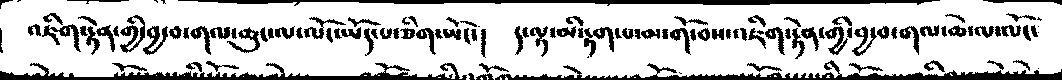འཇིག་རྟེན་གྱི་བྱ་བ་གལ་ཆུང་ལ་ལོང་ཡོད་པ་ཅིག་ཡོང་།  ད་ལྟ་མི་རྟག་པ་མ་གོ་བས་འཇིག་རྟེན་གྱི་བྱ་བ་གལ་ཆེ་ལ་ལོང་
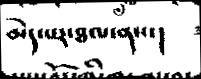མེད་པར་ཐལ་ནས་།
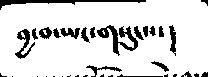བྱ་བ་ཡང་གསུངས་།
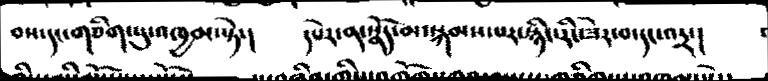བས་དང་གཅིག་པུ་འཁྱམ་སྟེ་།  དཔེར་ན་སྣོད་མ་སྐམས་པར་སྙིང་རིང་ཟེར་བ་དང་འདྲ་།
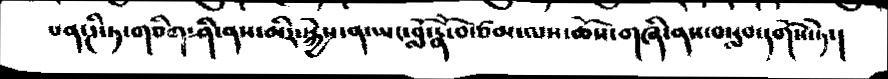པན་ཌི་ཏ་གཅིག་ཤི་ནས་མིར་སྐྱེས་ན་ཡང་བློ་རྣོ་བ་ཙམ་ལས་ཆོས་གཞི་ནས་བསླབ་དགོས་ཏེ་།
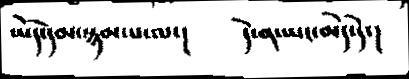ཡོད་དམ་སྙམ་པ་ལ་།  དེ་ན་ཡང་མེད་དེ་།
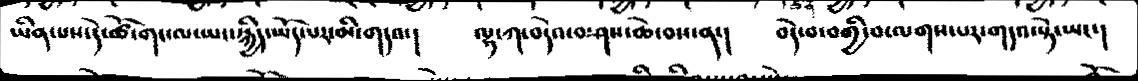ཡིན་པས་དེ་ཚོ་གང་ལ་ཡང་སྐྱིད་ཡོད་པར་མི་གདའ་།  ལྷ་ཀ་བདེའ་བ་ཤས་ཆེ་བས་ན་།  བདེ་བ་བགྱི་བ་ལགས་པར་གདའ་སྟེ་ཡང་།
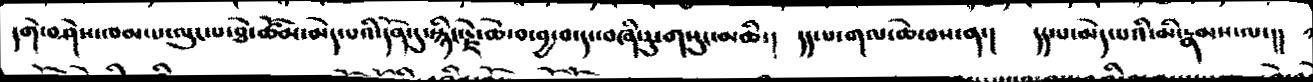དགེ་བཤེས་ཁམ་པ་ལུང་པ་ཐེ་ཚོམ་མེད་པའི་དོན་དུ་སྙིང་རྗེ་ཆེ་བ་བྱ་བ་དང་བཞི་རུ་གསུང་མཆི་།    དད་པ་གལ་ཆེ་བས་ན་།   དད་པ་མེད་པའི་མི་རྣམས་ལ་།།
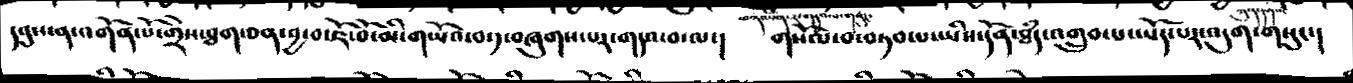དབུས་ན་འགོན་པོ་གྲེས་ཐག་ཅན་བྱ་བ་ཇོ་བོ་མི་གཡོའ་བ་༡་བཞུགས་པར་གདའ་བ་ལ་།  གསོལ་བ་བཏབ་པ་ཡིས་དོན་ཐཾད་འགྲུབ་པ་ཡོད་པར་འདུག་གསུང་།
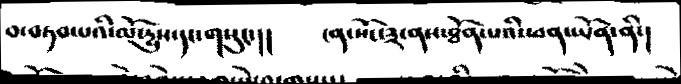བ་བཏབ་པའི་ལོ་དྱུས་དང་གསུང་།།    ངན་སོང་༣་ནས་ཐོན་པའི་ཕན་ཡོན་ནི་།
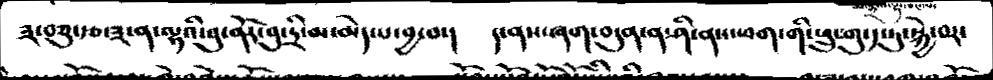༣་བཅུ་རྩ་༣་ན་ལྷའི་བུ་ནོར་བུ་དྲི་མ་མེད་པ་བྱ་བ་།   ད་ནས་ཞག་བདུན་ན་ཤི་ནས་ཕག་གི་ཕྲུ་གུ་༡་ཏུ་སྐྱེ་བར་
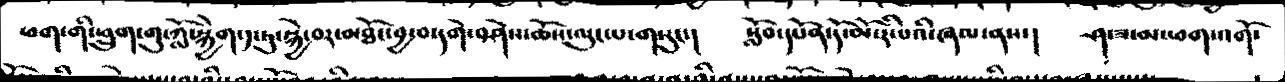ཕག་གི་ཕྲུ་གུ་ཀློ་སྐྱེག་༡་ཏུ་སྐྱེ་བར་མཐོང་བྱ་བ་དགེ་བཤེས་ཆོས་ལུང་པ་གསུང་།   སློབ་དཔོན་དོ་མོ་རི་པའི་ཞལ་ནས་།   ཤ་ཟ་མ་ཕག་འགོ་
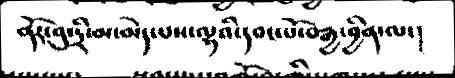ནོར་བུ་དྲི་མ་མེད་པས་ལྷའི་དབང་པོ་བརྒྱ་བྱིན་ལ་།
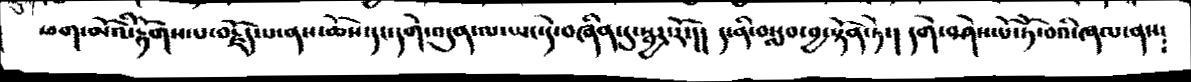ཕག་མོའི་རྟོགས་པ་བརྗོད་པ་ནས་ཆོས་དང་དགེ་འདུན་ལ་ཡང་དེ་བཞིན་དུ་སྦྱར་རོ་།།  ད་ནི་བསླབ་བྱ་སྟོན་ཏེ་།  དགེ་བཤེས་པོ་ཏོ་བའི་ཞལ་ནས༴
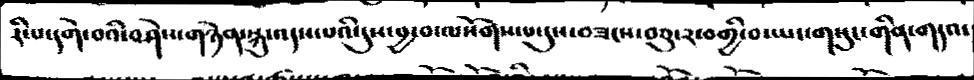རི་པ་དགེ་བའི་བཤེས་གཉེན་སྐུ་འདས་པའི་དུས་བྱ་བ་ལསོགས་པ་དུས་བཟངས་བཅུ་༢་བགྱི་བ་ཡང་གསུང་གིན་གདའ་
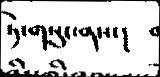ཏེ་གསུང་ནས་།
